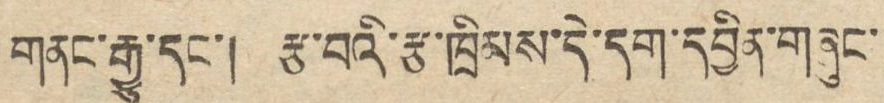གནང་རྒྱུ་དང་། རྩ་བའི་རྩ་ཁྲིམས་དེ་དག་དབྱིན་གཞུང་
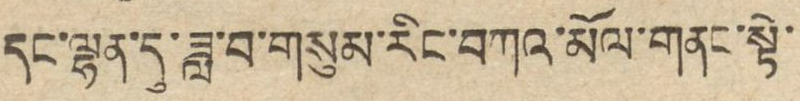དང་ལྷན་དུ་ཟླ་བ་གསུམ་རིང་བཀའ་མོལ་གནང་སྟེ་
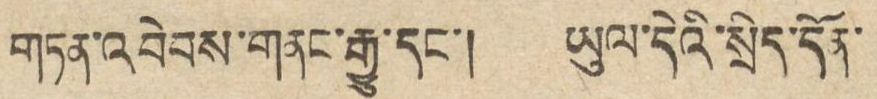གཏན་འབེབས་གནང་རྒྱུ་དང་། ཡུལ་དེའི་སྲིད་དོན་
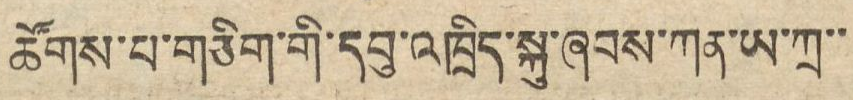ཚོགས་པ་གཅིག་གི་དབུ་འཁྲིད་སྐུ་ཞབས་ཀུན་ཡ་ཀྲ་་
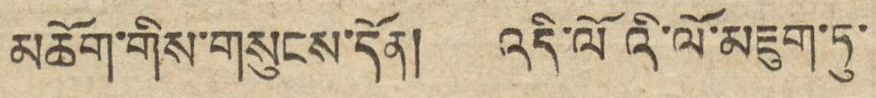མཆོག་གིས་གསུངས་དོན། འདི་ལོའི་ལོ་མཇུག་ཏུ་
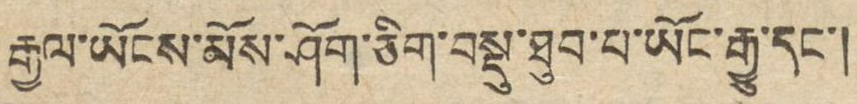རྒྱལ་ཡོངས་མོས་ཤོག་ཅིག་བསྡུ་ཐུབ་པ་ཡོང་རྒྱུ་དང་།
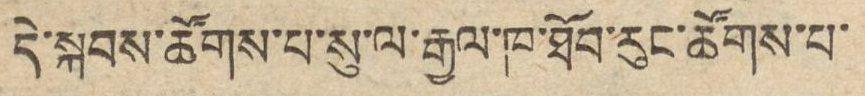དེ་སྐབས་ཚོགས་པ་སུ་ལ་རྒྱལ་ཁ་ཐོབ་རུང་ཚོགས་པ་
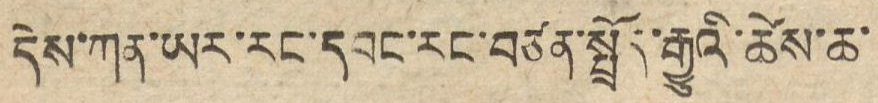དེས་ཀན་ཡར་རང་དབང་རང་བཙན་སྤྲོད་རྒྱུའི་ཚེས་ཆ་
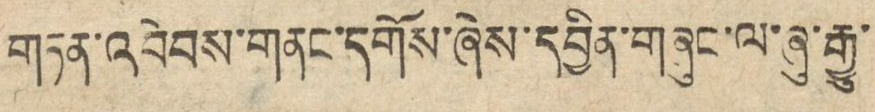གཏན་འབེབས་གནང་དགོས་ཞེས་དབྱིན་གཞུང་ལ་ཞུ་རྒྱུ།
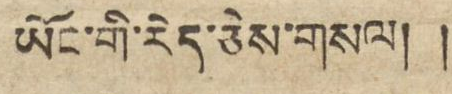ཡོང་གི་རེད་ཅེས་གསལ། །
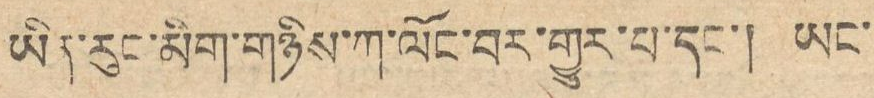ཡིན་རུང་མིག་གཉིས་ཀ་ལོང་བར་གྱུར་པ་དང་། ཡང་
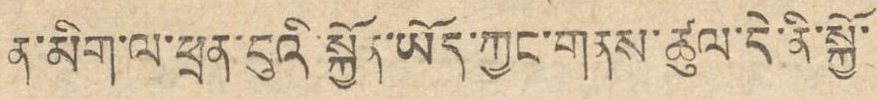ན་མིག་ལ་ཕྲན་བུའི་སྐྱོན་ཡོད་ཀྱང་གནས་ཚུལ་དེ་ནི་སྐྱོ་
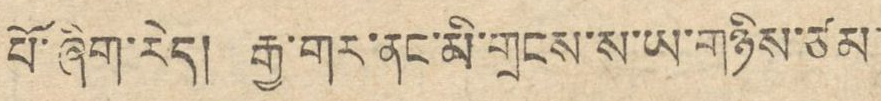པོ་ཞིག་རེད། རྒྱ་གར་ནང་མི་གྲངས་ས་ཡ་གཉིས་ཙམ་
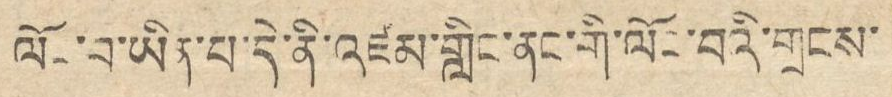ལོང་བ་ཡིན་པ་དེ་ནི་འཛམ་གླིང་ནང་གི་ལོང་བའི་གྲངས་
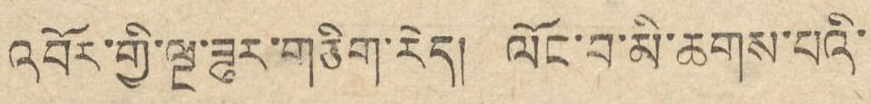འབོར་གྱི་ལྔ་ཟུར་གཅིག་རེད། ལོང་བ་མི་ཆགས་པའི་
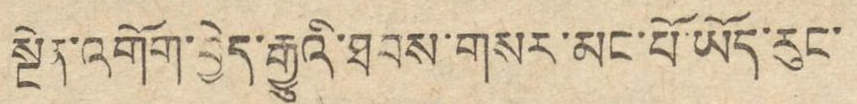སྔེན་འགོག་བྱེད་རྒྱུའི་ཐབས་གསར་མང་པོ་ཡོད་རུང་
